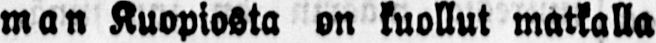man Kuopiosta on kuollut matkalla
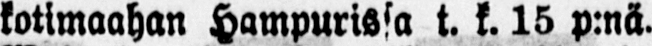kotimaahan Hampurissa t. k. 15 p:nä.
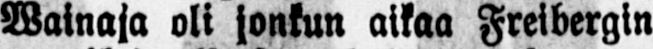Wainaja oli jonkun aikaa Freibergin
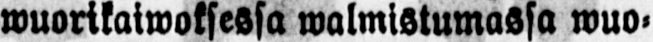wuorikaiwoksessa walmistumassa wuo-
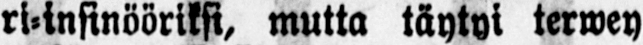ri-insinööriksi, mutta täytyi terwey-
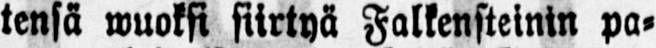tensä wuoksi siirtyä Falkensteinin pa-
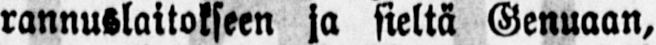rannuslaitokseen ja sieltä Genuaan,
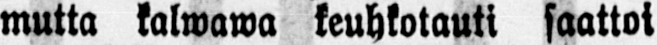mutta kalwawa keuhkotauti saattoi
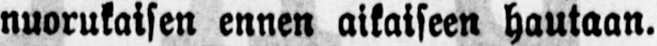nuorukaisen ennen aikaiseen hautaan.
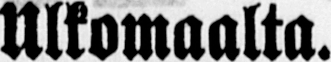Ulkomaalta.
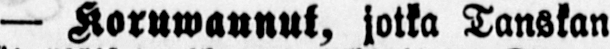— Koruwaunut, jotka Tanskan
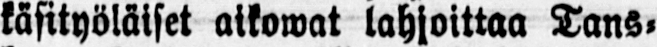käsityöläiset aikowat lahjoittaa Tans-
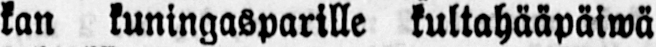kan kuningasparille kultahääpäiwä
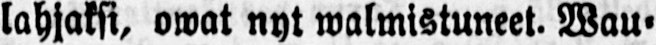lahjaksi, owat nyt walmistuneet. Wau-
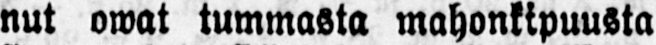nut owat tummasta mahonkipuusta
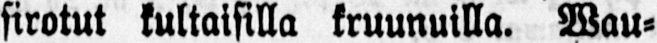sirotut kultaisilla kruunuilla. Wau-
